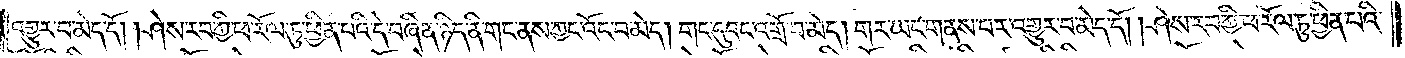འགྱུར་བ་མེད་དོ། །ཤེས་རབ་ཀྱི་ཕ་རོལ་ཏུ་ཕྱིན་པའི་དེ་བཞིན་ཉིད་ནི་གང་ནས་ཀྱང་འོང་བ་མེད། གང་དུའང་འགྲོ་བ་མེད། གར་ཡང་གནས་པར་འགྱུར་བ་མེད་དོ། །ཤེས་རབ་ཀྱི་ཕ་རོལ་ཏུ་ཕྱིན་པའི་
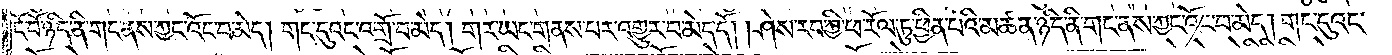ངོ་བོ་ཉིད་ནི་གང་ནས་ཀྱང་འོང་བ་མེད། གང་དུའང་འགྲོ་བ་མེད། གར་ཡང་གནས་པར་འགྱུར་བ་མེད་དོ། །ཤེས་རབ་ཀྱི་ཕ་རོལ་ཏུ་ཕྱིན་པའི་མཚན་ཉིད་ནི་གང་ནས་ཀྱང་འོང་བ་མེད། གང་དུའང་
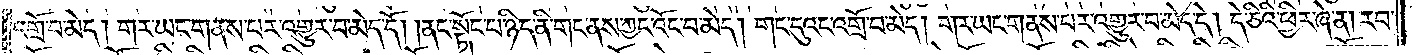འགྲོ་བ་མེད། གར་ཡང་གནས་པར་འགྱུར་བ་མེད་དོ། །ནང་སྟོང་པ་ཉིད་ནི་གང་ནས་ཀྱང་འོང་བ་མེད། གང་དུའང་འགྲོ་བ་མེད། གར་ཡང་གནས་པར་འགྱུར་བ་མེད་དེ། དེ་ཅིའི་ཕྱིར་ཞེ་ན། རབ་
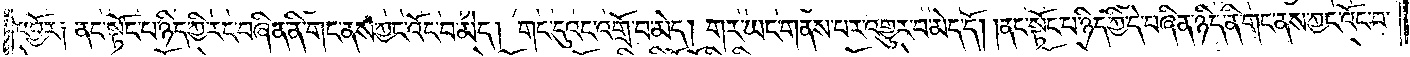འབྱོར། ནང་སྟོང་པ་ཉིད་ཀྱི་རང་བཞིན་ནི་གང་ནས་ཀྱང་འོང་བ་མེད། གང་དུའང་འགྲོ་བ་མེད། གར་ཡང་གནས་པར་འགྱུར་བ་མེད་དོ། །ནང་སྟོང་པ་ཉིད་ཀྱི་དེ་བཞིན་ཉིད་ནི་གང་ནས་ཀྱང་འོང་བ་
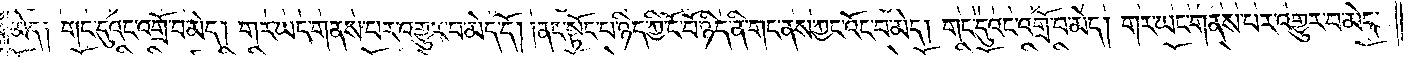མེད། གང་དུའང་འགྲོ་བ་མེད། གར་ཡང་གནས་པར་འགྱུར་བ་མེད་དོ། །ནང་སྟོང་པ་ཉིད་ཀྱི་ངོ་བོ་ཉིད་ནི་གང་ནས་ཀྱང་འོང་བ་མེད། གང་དུའང་འགྲོ་བ་མེད། གར་ཡང་གནས་པར་འགྱུར་བ་མེད་
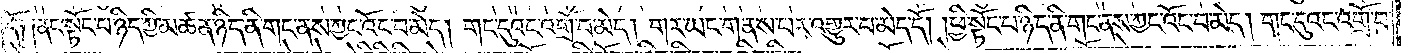དོ། །ནང་སྟོང་པ་ཉིད་ཀྱི་མཚན་ཉིད་ནི་གང་ནས་ཀྱང་འོང་བ་མེད། གང་དུའང་འགྲོ་བ་མེད། གར་ཡང་གནས་པར་འགྱུར་བ་མེད་དོ། །ཕྱི་སྟོང་པ་ཉིད་ནི་གང་ནས་ཀྱང་འོང་བ་མེད། གང་དུའང་འགྲོ་བ་
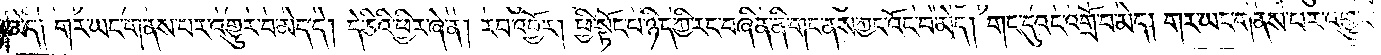མེད། གར་ཡང་གནས་པར་འགྱུར་བ་མེད་དེ། དེ་ཅིའི་ཕྱིར་ཞེ་ན། རབ་འབྱོར། ཕྱི་སྟོང་པ་ཉིད་ཀྱི་རང་བཞིན་ནི་གང་ནས་ཀྱང་འོང་བ་མེད། གང་དུའང་འགྲོ་བ་མེད། གར་ཡང་གནས་པར་འགྱུར་
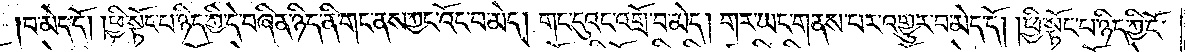བ་མེད་དོ། །ཕྱི་སྟོང་བ་ཉིད་ཀྱི་དེ་བཞིན་ཉིད་ནི་གང་ནས་ཀྱང་འོང་བ་མེད། གང་དུའང་འགྲོ་བ་མེད། གར་ཡང་གནས་པར་འགྱུར་བ་མེད་དོ། །ཕྱི་སྟོང་པ་ཉིད་ཀྱི་ངོ་
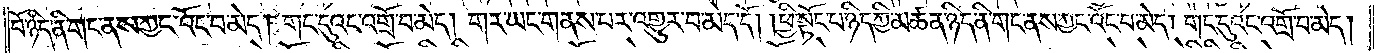བོ་ཉིད་ནི་གང་ནས་ཀྱང་འོང་བ་མེད། གང་དུའང་འགྲོ་བ་མེད། གར་ཡང་གནས་པར་འགྱུར་བ་མེད་དོ། །ཕྱི་སྟོང་པ་ཉིད་ཀྱི་མཚན་ཉིད་ནི་གང་ནས་ཀྱང་འོང་བ་མེད། གང་དུའང་འགྲོ་བ་མེད།
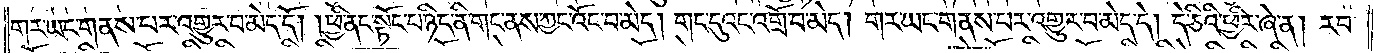གར་ཡང་གནས་པར་འགྱུར་བ་མེད་དོ། །ཕྱི་ནང་སྟོང་པ་ཉིད་ནི་གང་ནས་ཀྱང་འོང་བ་མེད། གང་དུའང་འགྲོ་བ་མེད། གར་ཡང་གནས་པར་འགྱུར་བ་མེད་དེ། དེ་ཅིའི་ཕྱིར་ཞེ་ན། རབ་
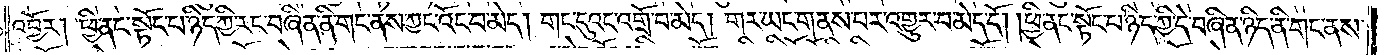འབྱོར། ཕྱི་ནང་སྟོང་པ་ཉིད་ཀྱི་རང་བཞིན་ནི་གང་ནས་ཀྱང་འོང་བ་མེད། གང་དུའང་འགྲོ་བ་མེད། གར་ཡང་གནས་པར་འགྱུར་བ་མེད་དོ། །ཕྱི་ནང་སྟོང་པ་ཉིད་ཀྱི་དེ་བཞིན་ཉིད་ནི་གང་ནས་
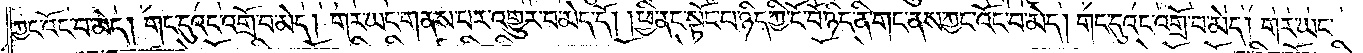ཀྱང་འོང་བ་མེད། གང་དུའང་འགྲོ་བ་མེད། གར་ཡང་གནས་པར་འགྱུར་བ་མེད་དོ། །ཕྱི་ནང་སྟོང་པ་ཉིད་ཀྱི་ངོ་བོ་ཉིད་ནི་གང་ནས་ཀྱང་འོང་བ་མེད། གང་དུའང་འགྲོ་བ་མེད། གར་ཡང་
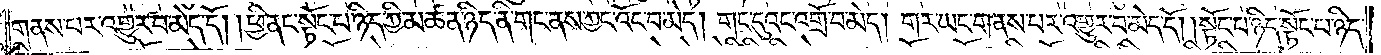གནས་པར་འགྱུར་བ་མེད་དོ། །ཕྱི་ནང་སྟོང་པ་ཉིད་ཀྱི་མཚན་ཉིད་ནི་གང་ནས་ཀྱང་འོང་བ་མེད། གང་དུའང་འགྲོ་བ་མེད། གར་ཡང་གནས་པར་འགྱུར་བ་མེད་དོ། །སྟོང་པ་ཉིད་སྟོང་པ་ཉིད་
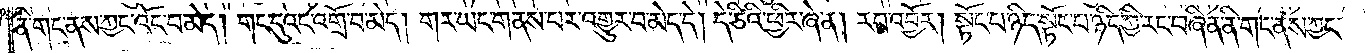ནི་གང་ནས་ཀྱང་འོང་བ་མེད། གང་དུའང་འགྲོ་བ་མེད། གར་ཡང་གནས་པར་འགྱུར་པ་མེད་དེ། དེ་ཅིའི་ཕྱིར་ཞེ་ན། རབ་འབྱོར། སྟོང་པ་ཉིད་སྟོང་པ་ཉིད་ཀྱི་རང་བཞིན་ནི་གང་ནས་ཀྱང་
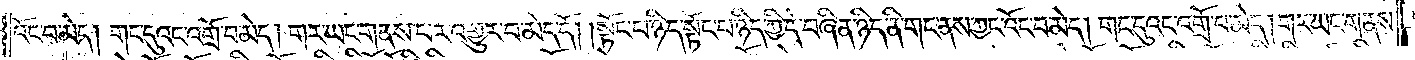འོང་བ་མེད། གང་དུའང་འགྲོ་བ་མེད། གར་ཡང་གནས་པར་འགྱུར་བ་མེད་དོ། །སྟོང་པ་ཉིད་སྟོང་པ་ཉིད་ཀྱི་དེ་བཞིན་ཉིད་ནི་གང་ནས་ཀྱང་འོང་བ་མེད། གང་དུའང་འགྲོ་བ་མེད། གར་ཡང་གནས་
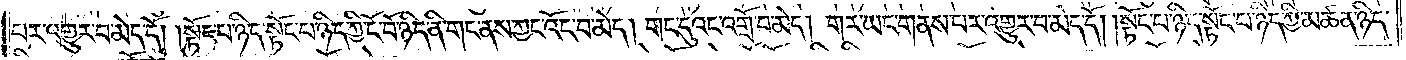པར་འགྱུར་བ་མེད་དོ། །སྟོང་པ་ཉིད་སྟོང་པ་ཉིད་ཀྱི་ངོ་བོ་ཉིད་ནི་གང་ནས་ཀྱང་འོང་བ་མེད། གང་དུའང་འགྲོ་བ་མེད། གར་ཡང་གནས་པར་འགྱུར་བ་མེད་དོ། །སྟོང་པ་ཉིད་སྟོང་པ་ཉིད་ཀྱི་མཚན་ཉིད་
